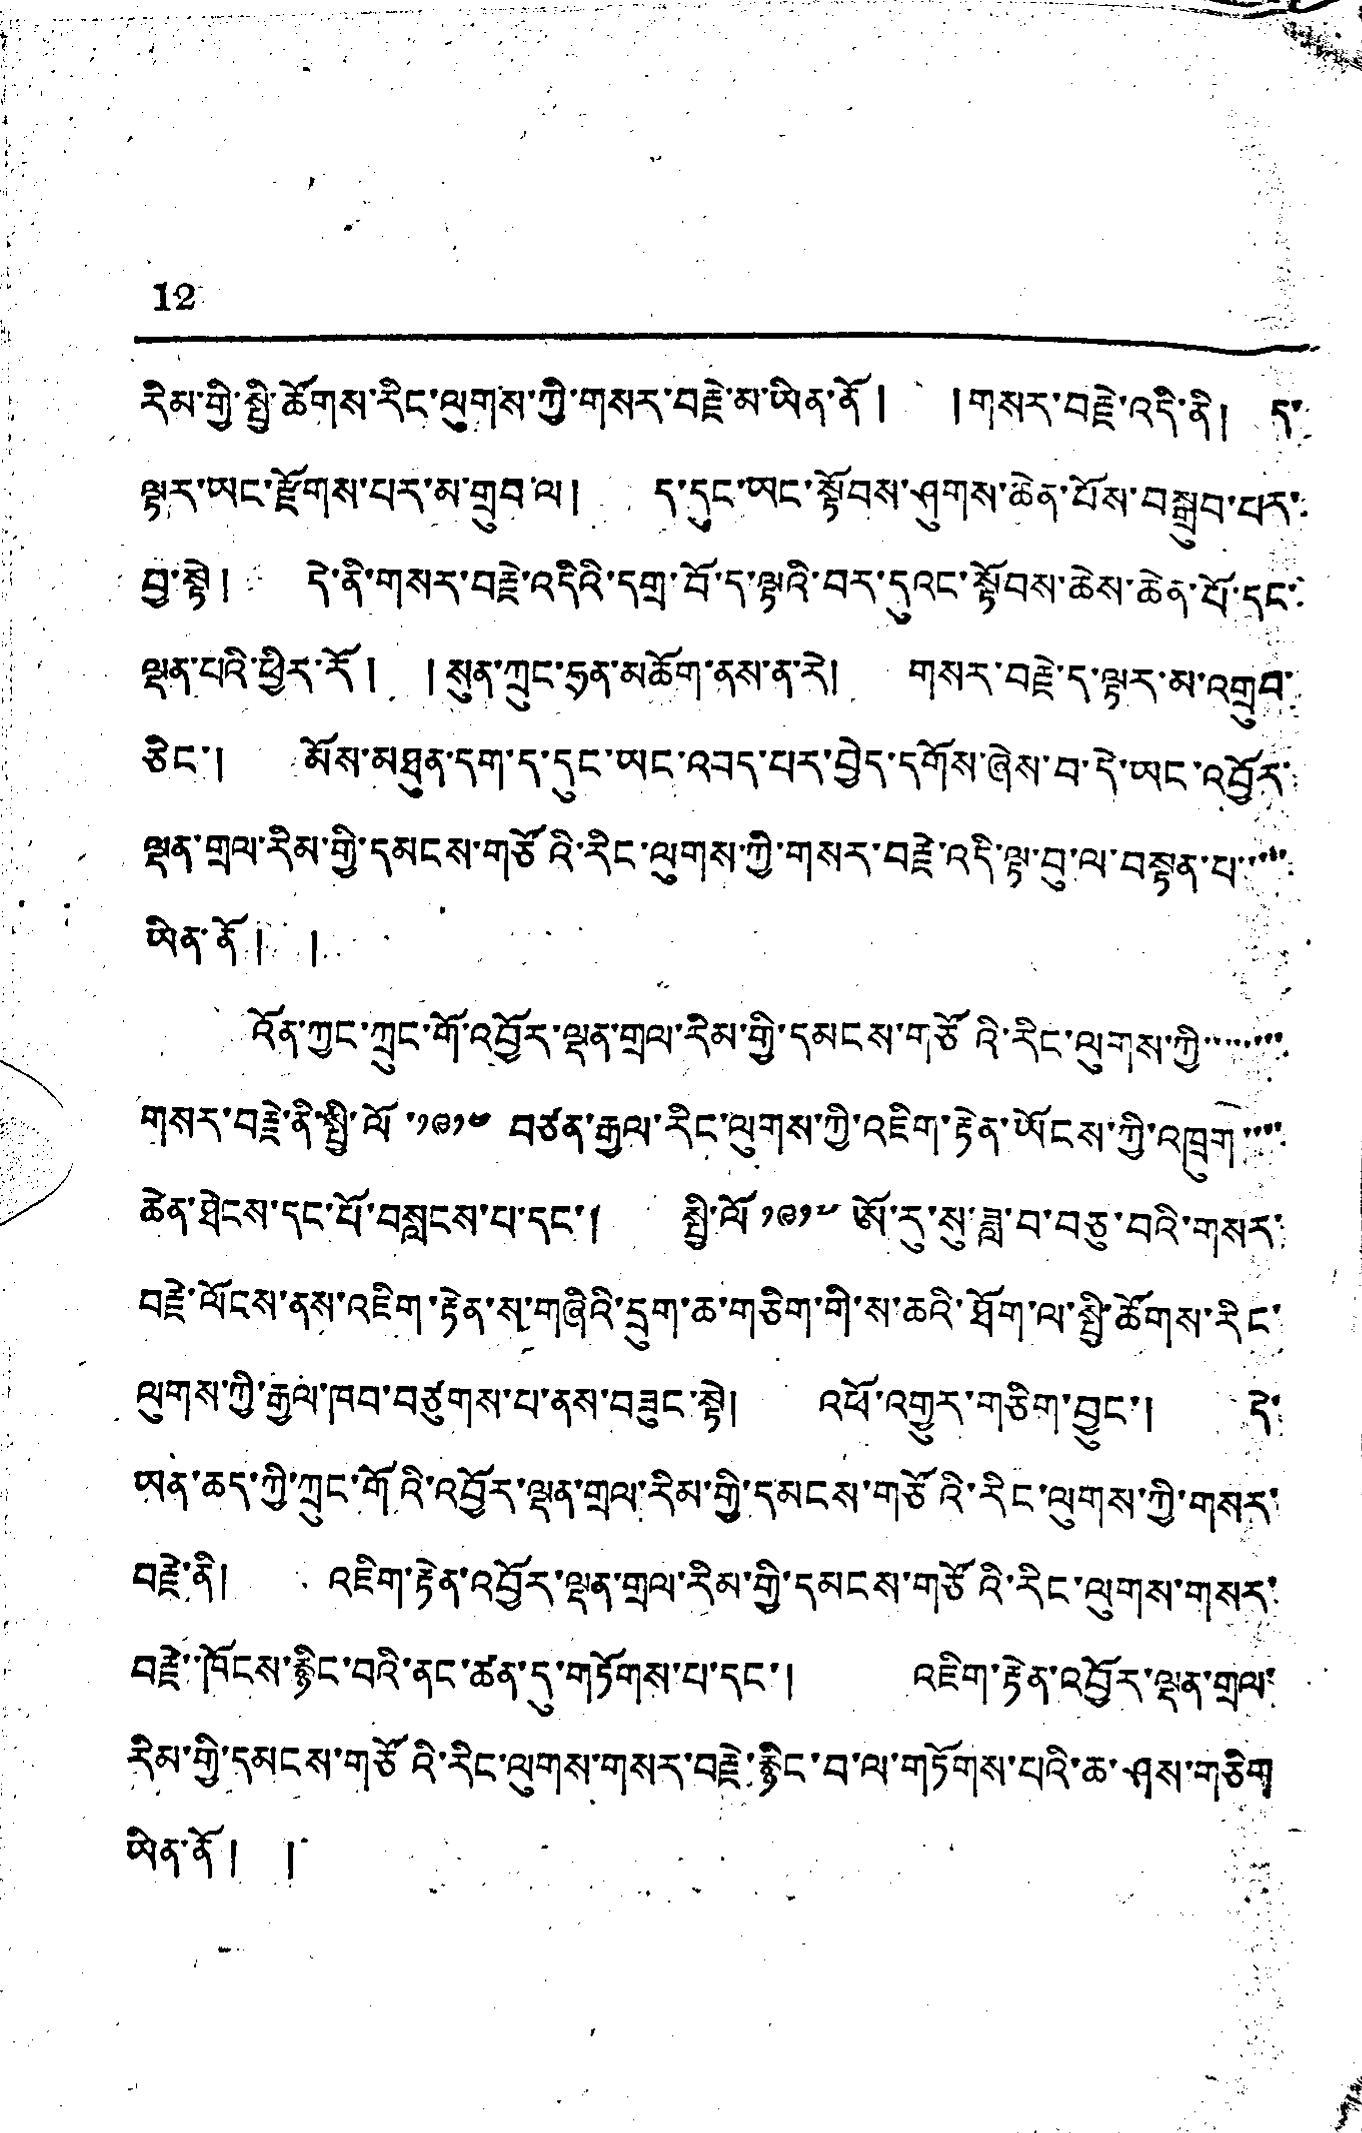12
རིམ་གྱི་སྤྱི་ཙོགས་རིང་ལུགས་ཀྱི་གསར་བརྗེ་མ་ཡིན་ནོ། །གསར་བརྗེ་འདི་ནི། ད་
ལྟར་ཡང་རྫོགས་པར་མ་གྲུབ་ལ། ད་དུང་ཡང་སྟོབས་ཤུགས་ཆེན་པོས་བསྒྲུབ་པར་
བྱ་སྟེ། དེ་ནི་གསར་བརྗེ་འདིའི་དགྲ་བོ་ད་ལྟའི་བར་དུའང་སྟོབས་ཆེས་ཆེན་པོ་དང་
ལྡན་པའི་ཕྱིར་རོ། །སུན་ཀྲུང་ཧྲན་མཆོག་ནས་ན་རེ། གསར་བརྗེ་ད་ལྟར་མ་འགྲུབ་
ཅིང་། མོས་མཐུན་དག་ད་དུང་ཡང་འབད་པར་བྱེད་དགོས་ཞེས་བ་དེ་ཡང་འབྱོར་
ལྡན་གྲལ་རིམ་གྱི་དམངས་གཙོའི་རིང་ལུགས་ཀྱི་གསར་བརྗེ་འདི་ལྟ་བུ་ལ་བསྟན་པ་་་་་
ཡིན་ནོ ། །
འོན་ཀྱང་ཀྲུང་གོ་འབྱོར་ལྡན་གྲ་རིམ་གྱི་དམངས་གཙོའི་རིང་ལུགས་ཀྱི་་་་་་་་
གསར་བརྗེ་ནི་སྤྱི་ལོ་༡༩༡༤ བཙན་རྒྱལ་རིང་ལུགས་ཀྱི་འཇིག་རྟེན་ཡོངས་ཀྱི་འཁྲུག་་་་
ཆེན་ཐེངས་དང་པོ་བསླངས་པ་དང་། སྤྱི་ལོ ༡༩༡༧ ཨོ་རུ་སུ་ཟླ་བ་བཅུ་བའི་གསར་
བརྗེ་ལོངས་ནས་འཇིག་རྟེན་ས་གཞིའི་དྲུག་ཆ་གཅིག་གི་ས་ཆའི་ཐོག་ལ་སྤྱི་ཚོགས་རིང་
ལུགས་ཀྱི་རྒྱལ་ཁབ་བཙུགས་པ་ནས་བཟུང་སྟེ། འཕོ་འགྱུར་གཅིག་བྱུང་། དེ་
ཡན་ཆད་ཀྱི་ཀྲུང་གོའི་འབྱོར་ལྡན་གྲལ་རིམ་གྱི་དམངས་གཙོའི་རིང་ལུགས་ཀྱི་གསར་
བརྗེ་ནི། འཇིག་རྟེན་འབྱོར་ལྡན་གྲལ་རིམ་གྱི་དམངས་གཙོའི་རིང་ལུགས་གསར་
བརྗེ་ཁོངས་རྙིང་བའི་ནང་ཚན་དུ་གཏོགས་པ་དང་། འཇིག་རྟེན་འབྱོར་ལྡན་གྲལ་
རིམ་གྱི་དམངས་གཙོའི་རིང་ལུགས་གསར་བརྗེ་རྙིང་བ་ལ་གཏོགས་པའི་ཆ་ཤས་གཅིག
ཡིན་ནོ། །
